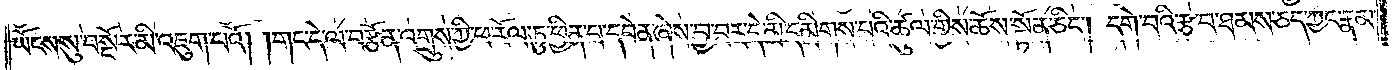ཡོངས་སུ་བསྔོར་མི་འཇུག་པའོ། །གང་དེ་ལ་བརྩོན་འགྲུས་ཀྱི་ཕ་རོལ་ཏུ་ཕྱིན་པ་དབེན་ཞེས་བྱ་བར་དེ་མི་དམིགས་པའི་ཚུལ་གྱིས་ཆོས་སྟོན་ཅིང༌། དགེ་བའི་རྩ་བ་ཐམས་ཅད་ཀྱང་རྣམ་
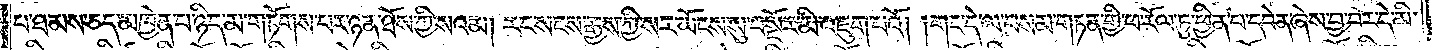པ་ཐམས་ཅད་མཁྱེན་པ་ཉིད་མ་གཏོགས་པར་ཉན་ཐོས་ཀྱི་སའམ། རང་སངས་རྒྱས་ཀྱི་སར་ཡོངས་སུ་བསྔོར་མི་འཇུག་པའོ། །གང་དེ་ལ་བསམ་གཏན་གྱི་ཕ་རོལ་ཏུ་ཕྱིན་པ་དབེན་ཞེས་བྱ་བར་དེ་མི་
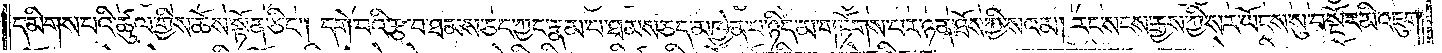དམིགས་པའི་ཚུལ་གྱིས་ཆོས་སྟོན་ཅིང༌། དགེ་བའི་རྩ་བ་ཐམས་ཅད་ཀྱང་རྣམ་པ་ཐམས་ཅད་མཁྱེན་པ་ཉིད་མ་གཏོགས་པར་ཉན་ཐོས་ཀྱི་སའམ། རང་སངས་རྒྱས་ཀྱི་སར་ཡོངས་སུ་བསྔོར་མི་འཇུག་
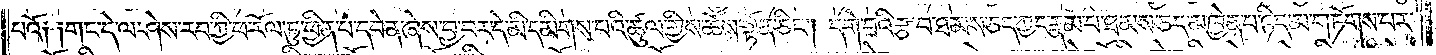པའོ༑ ༑གང་དེ་ལ་ཤེས་རབ་ཀྱི་ཕ་རོལ་ཏུ་ཕྱིན་པ་དབེན་ཞེས་བྱ་བར་དེ་མི་དམིགས་པའི་ཚུལ་གྱིས་ཆོས་སྟོན་ཅིང༌། དགེ་བའི་རྩ་བ་ཐམས་ཅད་ཀྱང་རྣམ་པ་ཐམས་ཅད་མཁྱེན་པ་ཉིད་མ་གཏོགས་པར་
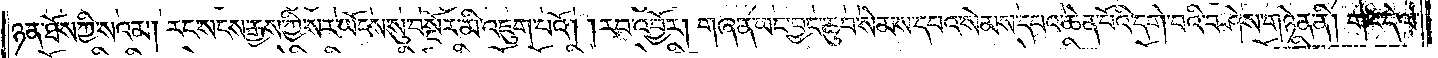ཉན་ཐོས་ཀྱི་སའམ། རང་སངས་རྒྱས་ཀྱི་སར་ཡོངས་སུ་བསྔོར་མི་འཇུག་པའོ། །རབ་འབྱོར། གཞན་ཡང་བྱང་ཆུབ་སེམས་དཔའ་སེམས་དཔའ་ཆེན་པོའི་དགེ་བའི་བཤེས་གཉེན་ནི། གང་དེ་ལ་
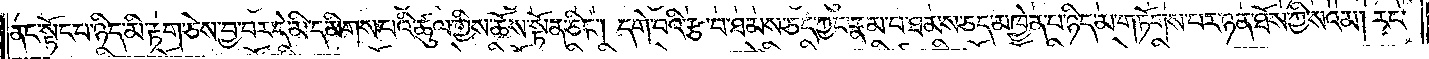ནང་སྟོང་པ་ཉིད་མི་རྟག་ཅེས་བྱ་བར་དེ་མི་དམིགས་པའི་ཚུལ་གྱིས་ཆོས་སྟོན་ཅིང༌། དགེ་བའི་རྩ་བ་ཐམས་ཅད་ཀྱང་རྣམ་པ་ཐམས་ཅད་མཁྱེན་པ་ཉིད་མ་གཏོགས་པར་ཉན་ཐོས་ཀྱི་སའམ། རང་
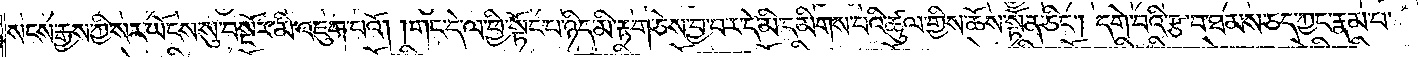སངས་རྒྱས་ཀྱི་སར་ཡོངས་སུ་བསྔོར་མི་འཇུག་པའོ། །གང་དེ་ལ་ཕྱི་སྟོང་པ་ཉིད་མི་རྟག་ཅེས་བྱ་བར་དེ་མི་དམིགས་པའི་ཚུལ་གྱིས་ཆོས་སྟོན་ཅིང༌། དགེ་བའི་རྩ་བ་ཐམས་ཅད་ཀྱང་རྣམ་པ་
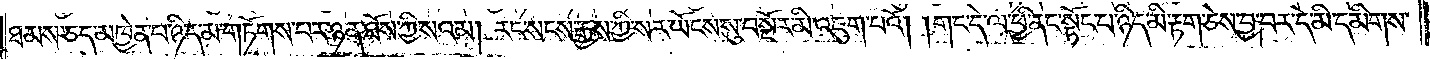ཐམས་ཅད་མཁྱེན་པ་ཉིད་མ་གཏོགས་པར་ཉན་ཐོས་ཀྱི་སའམ། རང་སངས་རྒྱས་ཀྱི་སར་ཡོངས་སུ་བསྔོར་མི་འཇུག་པའོ། །གང་དེ་ལ་ཕྱི་ནང་སྟོང་པ་ཉིད་མི་རྟག་ཅེས་བྱ་བར་དེ་མི་དམིག་
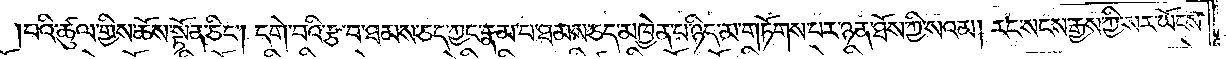བའི་ཚུལ་གྱིས་ཆོས་སྟོན་ཅིང༌། དགེ་བའི་རྩ་བ་ཐམས་ཅད་ཀྱང་རྣམ་པ་ཐམས་ཅད་མཁྱེན་པ་ཉིད་མ་གཏོགས་པར་ཉན་ཐོས་ཀྱི་སའམ། རང་སངས་རྒྱས་ཀྱི་སར་ཡོངས་
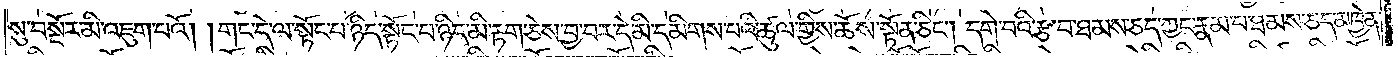སུ་བསྔོར་མི་འཇུག་པའོ། །གང་དེ་ལ་སྟོང་པ་ཉིད་སྟོང་པ་ཉིད་མི་རྟག་ཅེས་བྱ་བར་དེ་མི་དམིགས་པའི་ཚུལ་གྱིས་ཆོས་སྟོན་ཅིང༌། དགེ་བའི་རྩ་བ་ཐམས་ཅད་ཀྱང་རྣམ་པ་ཐམས་ཅད་མཁྱེན་
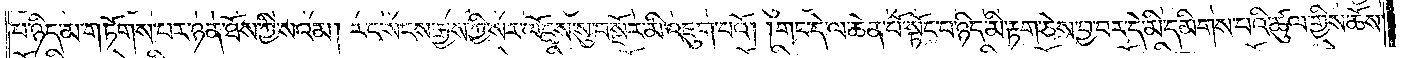པ་ཉིད་མ་གཏོགས་པར་ཉན་ཐོས་ཀྱི་སའམ། རང་སངས་རྒྱས་ཀྱི་སར་ཡོངས་སུ་བསྔོར་མི་འཇུག་པའོ། །གང་དེ་ལ་ཆེན་པོ་སྟོང་བ་ཉིད་མི་རྟག་ཅེས་བྱ་བར་དེ་མི་དམིགས་པའི་ཚུལ་གྱིས་ཆོས་
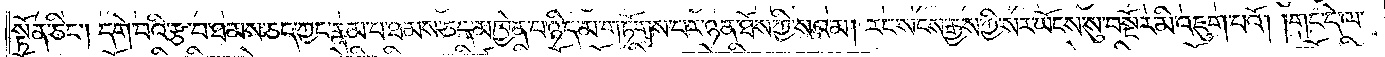སྟོན་ཅིང༌། དགེ་བའི་རྩ་བ་ཐམས་ཅད་ཀྱང་རྣམ་པ་ཐམས་ཅད་མཁྱེན་པ་ཉིད་མ་གཏོགས་པར་ཉན་ཐོས་ཀྱི་སའམ། རང་སངས་རྒྱས་ཀྱི་སར་ཡོངས་སུ་བསྔོར་མི་འཇུག་པའོ། །གང་དེ་ལ་
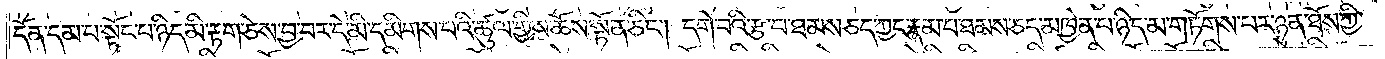དོན་དམ་པ་སྟོང་པ་ཉིད་མི་རྟག་ཅེས་བྱ་བར་དེ་མི་དམིགས་པའི་ཚུལ་གྱིས་ཆོས་སྟོན་ཅིང༌། དགེ་བའི་རྩ་བ་ཐམས་ཅད་ཀྱང་རྣམ་པ་ཐམས་ཅད་མཁྱེན་པ་ཉིད་མ་གཏོགས་པར་ཉན་ཐོས་ཀྱི་
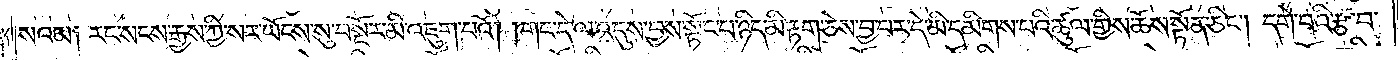སའམ༑ རང་སངས་རྒྱས་ཀྱི་སར་ཡོངས་སུ་བསྔོར་མི་འཇུག་པའོ། །གང་དེ་ལ་འདུས་བྱས་སྟོང་པ་ཉིད་མི་རྟག་ཅེས་བྱ་བར་དེ་མི་དམིགས་པའི་ཚུལ་གྱིས་ཆོས་སྟོན་ཅིང༌། དགེ་བའི་རྩ་བ་
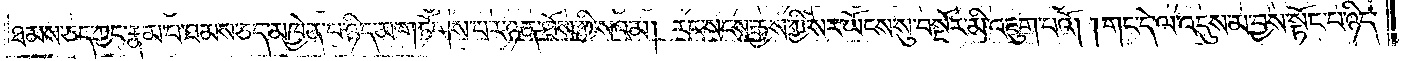ཐམས་ཅད་ཀྱང་རྣམ་བ་ཐམས་ཅད་མཁྱེན་པ་ཉིད་མ་གཏོགས་པར་ཉན་ཐོས་ཀྱི་སའམ། རང་སངས་རྒྱས་ཀྱི་སར་ཡོངས་སུ་བསྔོར་མི་འཇུག་པའོ། །གང་དེ་ལ་འདུས་མ་བྱས་སྟོང་པ་ཉིད་
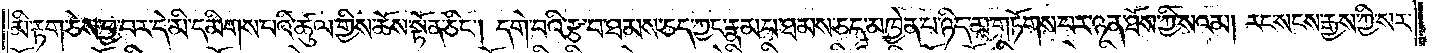མི་རྟག་ཅེས་བྱ་བར་དེ་མི་དམིགས་པའི་ཚུལ་གྱིས་ཆོས་སྟོན་ཅིང༌། དགེ་བའི་རྩ་བ་ཐམས་ཅད་ཀྱང་རྣམ་པ་ཐམས་ཅད་མཁྱེན་པ་ཉིད་མ་གཏོགས་པར་ཉན་ཐོས་ཀྱི་སའམ། རང་སངས་རྒྱས་ཀྱི་སར་
